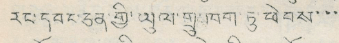རང་དབང་ཅན་གྱི་ཡུལ་གྲུ་ཁག་ཏུ་ཕེབས་་་
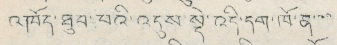འཁོད་ཐུབ་པའི་འདུས་སྡེ་འདི་དག་ཁོ་ན་་་
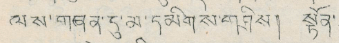ལས་གཞན་དུ་མི་དམིགས་གཤིས། སྟོན་
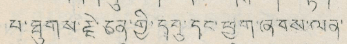པ་ཐུགས་རྗེ་ཅན་གྱི་དགུ་དང་ཕྱག་ཞབས་ལེན་
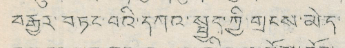བརྒྱར་བཏང་བའི་དཀའ་སྤྱད་ཀྱི་གྲངས་མེད་
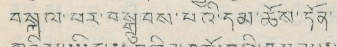བསྐལ་བར་བསྒྲུབས་པའི་དམ་ཆོས་དོན་
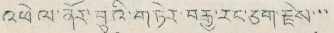འཕེལ་ནོར་བུའི་གཏེར་བརྒྱ་རང་ཅིག་རྗེས་་་
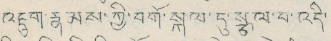འཇུག་རྣམས་ཀྱི་བགོ་སྐལ་དུ་སྩལ་བ་འདི་
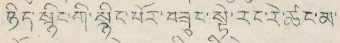ཉིད་སྙིང་གི་སྙིང་པོར་བཟུང་སྟེ་རང་རེ་ཚང་མ་
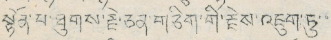སྟོན་པ་ཐུགས་རྗེ་ཅན་གཅིག་གི་རྗེས་འཇུག་ཏུ་་
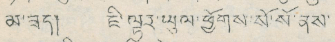མ་ཟད། ཇི་ལྟར་ཡུལ་ཕྱོགས་སོ་སོ་ནས་
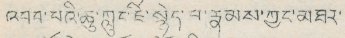འབབ་པའི་ཆུ་ཀླུང་ཇི་སྙེད་པ་རྣམས་ཀྱང་མཐར་
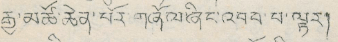རྒྱ་མཚོ་ཆེན་པོར་གཞོལ་ཞིང་འབབ་པ་ལྟར།
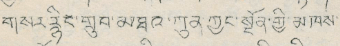གསར་རྙིང་གྲུབ་མཐའ་ཀུན་ཀྱང་སྔོན་གྱི་མཁས་
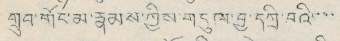གྲུབ་གོང་མ་རྣམས་ཀྱིས་གདུལ་བྱ་དཀྲི་བའི་་་
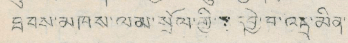ཐབས་མཁས་ལམ་སྲོལ་གྱི་ དབྱེབ་འདྲ་མིན་
